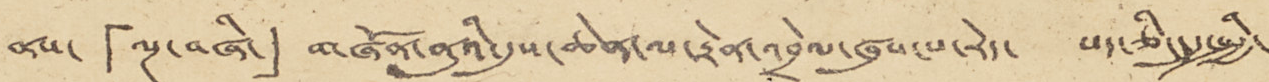ནས་ 「ལྔ་བཞི་」 གཞོན་ནུའི་དུས་ཆེན་ལ་རྟེན་འབྲེལ་ཞུས་པ་རེད་ པད་ཅིང་དུ་སྤྱི་
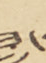ཟླ་
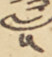༥
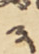༣
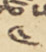༤
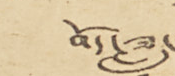བོད་ཟླ་
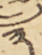༣
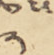༢
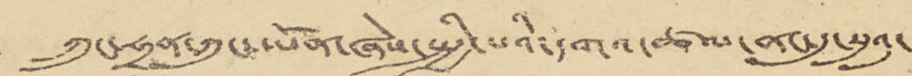ཀྲུང་ཧྲན་ཀུང་ཡོན་ཞེས་སྤྱི་པའི་དགའ་ཚལ་ནང་དུ་སུའུ་
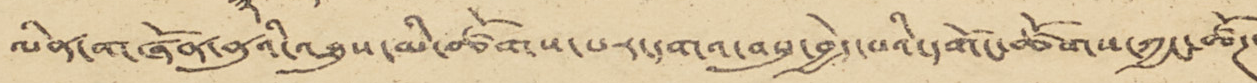ལིན་གཞོན་ནུའི་འཐུས་མི་ཚོགས་པར་དགའ་བསུ་བྱེད་པའི་དགོང་ཚོགས་ཀྱང་ཚོཊ་
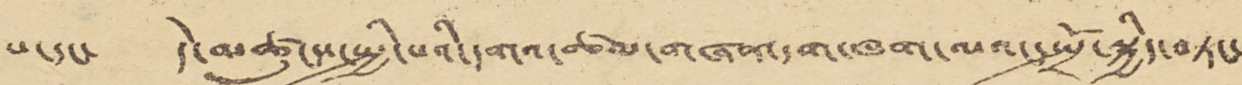པ་དང་ དེ་མཚུངས་སྤྱི་པའི་དགའ་ཚལ་གཞན་དག་ཁག་ལའང་སྤྲོ་སྐྱིད་བཏང་
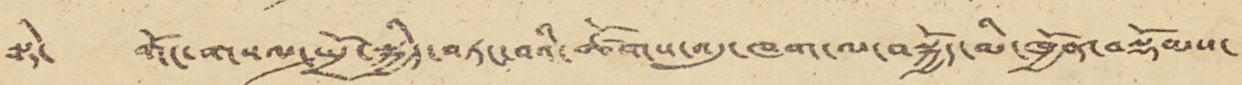སྟེ་ གོང་གསལ་སྤྲོ་སྐྱིད་བཏང་བའི་ཚོགས་འདུ་ཁག་ལ་བསྐྱོད་མི་ཁྱོན་བསྡོམས་
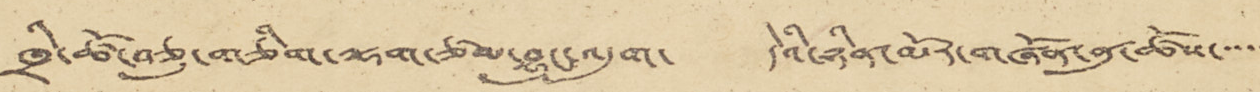ཁྲི་ཚོ་བཅུ་གཅིག་ལྷག་ཙམ་བྱུང་འདུག་ དེའི་ཉིན་མོར་གཞོན་ནུ་ཚོས་་་་་
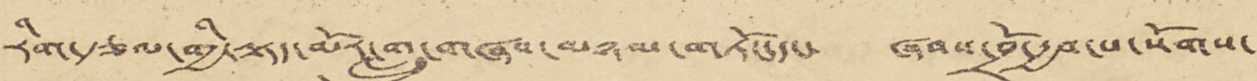རིག་རྩལ་གྱི་ལྟད་མོར་གླུ་གཞས་མཉམ་གཏོང་དང་ ཞབས་བྲོ་རྒྱབ་པ་སོགས་
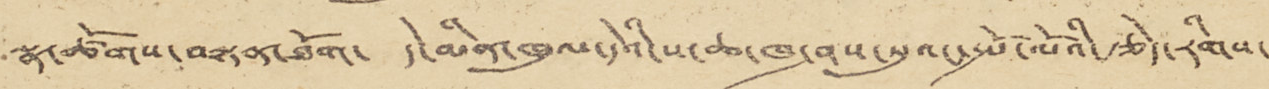སྣ་ཚོགས་བསྟན་ཐོག་ དེ་མིན་ཁུལ་དེའི་ས་ཆ་ཁ་ཤས་སུའང་སྤོ་ལོའི་རྩེད་རིགས་
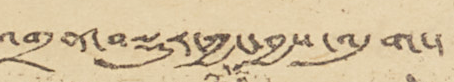འགྲན་བསྡུར་ཀྱང་བྱས་འདུག་།
